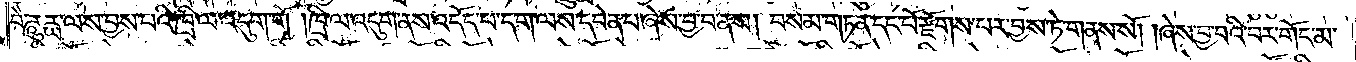བཻ་ཌཱུརྻ་ལས་བྱས་པའི་ཁྲི་ལ་འདུག་གོ །ཁྲི་ལ་འདུག་ནས་འདོད་པ་དག་ལས་དབེན་པ་ཞེས་བྱ་བ་ནས། བསམ་གཏན་དང་པོ་རྫོགས་པར་བྱས་ཏེ་གནས་སོ། །ཞེས་བྱ་བའི་བར་གོང་མ་
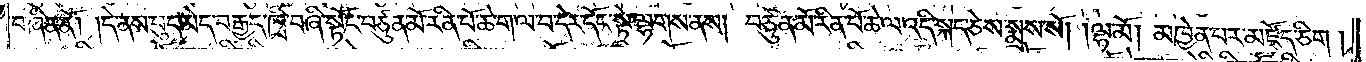བཞིན་ནོ། །དེ་ནས་བུད་མེད་བརྒྱད་ཁྲི་བཞི་སྟོང་བཙུན་མོ་རིན་པོ་ཆེ་ག་ལ་བ་དེར་དོང་སྟེ་ལྷགས་ནས། བཙུན་མོ་རིན་པོ་ཆེ་ལ་འདི་སྐད་ཅེས་སྨྲས་སོ། །ལྷ་མོ། མཁྱེན་པར་མཛོད་ཅིག།
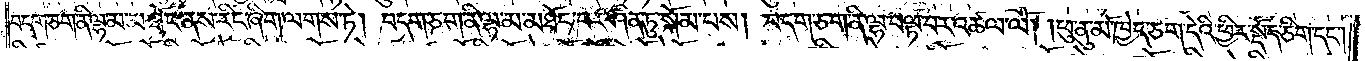བདག་ཅག་ནི་ལྷ་མ་མཐོང་ནས་རིང་ཞིག་ལགས་ཏེ། བདག་ཅག་ནི་ལྷ་མ་མཐོང་བར་ཤིན་ཏུ་སྐོམ་པས། བདག་ཅག་ནི་ལྷ་བལྟ་བར་འཚལ་ལོ། །ཕུ་ནུ་མོ་ཁྱེད་ཅག་དེའི་ཕྱིར་སྡོད་ཅིག་དང༌།
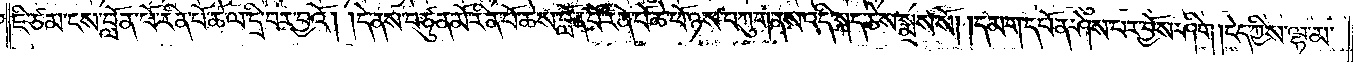ཇི་ཙམ་ངས་བློན་པོ་རིན་པོ་ཆེ་ལ་དྲི་བར་བྱའོ། །དེ་ནས་བཙུན་མོ་རིན་པོ་ཆེས་བློན་པོ་རིན་པོ་ཆེ་ཕོ་ཉས་བཀུག་ནས་འདི་སྐད་ཅེས་སྨྲས་སོ། །དམག་དཔོན་ཤེས་པར་བྱོས་ཤིག །ངེད་ཀྱིས་ལྷ་མ་
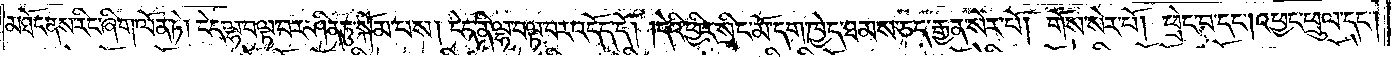མཐོང་ནས་རིང་ཞིག་ལོན་ཏེ། ངེད་ལྷ་བལྟ་བར་ཤིན་ཏུ་སྐོམ་པས། ངེད་ནི་ལྷ་བལྟ་བར་འདོད་དོ། །དེའི་ཕྱིར་སྲིང་མོ་དག་ཁྱེད་ཐམས་ཅད་རྒྱན་སེར་པོ། གོས་སེར་པོ། ཕྲེང་བ་དང༌། འཕྱང་ཕྲུལ་དང༌།
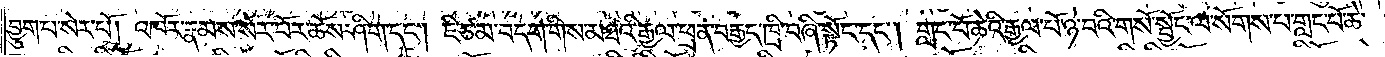བྱུག་པ་སེར་པོ། འཁོར་རྣམས་སེར་པོར་ཆོས་ཤིག་དང༌། ཇི་ཙམ་བདག་གིས་མཐའི་རྒྱལ་ཕྲན་བརྒྱད་ཁྲི་བཞི་སྟོང་དང༌། གླང་པོ་ཆེའི་རྒྱལ་པོ་ཉེ་བའི་གསོ་སྦྱོང་ལ་སོགས་པ་གླང་པོ་ཆེ་
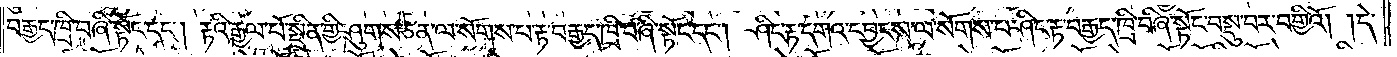བརྒྱད་ཁྲི་བཞི་སྟོང་དང༌། རྟའི་རྒྱལ་པོ་སྤྲིན་གྱི་ཤུགས་ཅན་ལ་སོགས་པ་རྟ་བརྒྱད་ཁྲི་བཞི་སྟོང་དང༌། ཤིང་རྟ་དགའ་དབྱངས་ལ་སོགས་པ་ཤིང་རྟ་བརྒྱད་ཁྲི་བཞི་སྟོང་བསྡུ་བར་བགྱིའོ། །དེ་
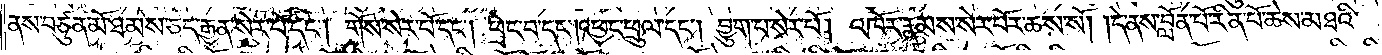ནས་བཙུན་མོ་ཐམས་ཅད་རྒྱན་སེར་པོ་དང༌། གོས་སེར་པོ་དང༌། ཕྲེང་བ་དང༌། འཕྱང་ཕྲུལ་དང༌། བྱུག་པ་སེར་པོ། འཁོར་རྣམས་སེར་པོར་ཆས་སོ། །དེ་ནས་བློན་པོ་རིན་པོ་ཆེས་མཐའི་
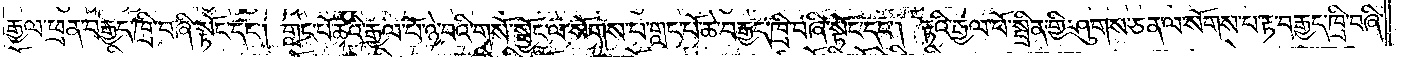རྒྱལ་ཕྲན་བརྒྱད་ཁྲི་བཞི་སྟོང་དང༌། གླང་པོ་ཆེའི་རྒྱལ་པོ་ཉེ་བའི་གསོ་སྦྱོང་ལ་སོགས་པ་གླང་པོ་ཆེ་བརྒྱད་ཁྲི་བཞི་སྟོང་དང༌། རྟའི་རྒྱལ་པོ་སྤྲིན་གྱི་ཤུགས་ཅན་ལ་སོགས་པ་རྟ་བརྒྱད་ཁྲི་བཞི་
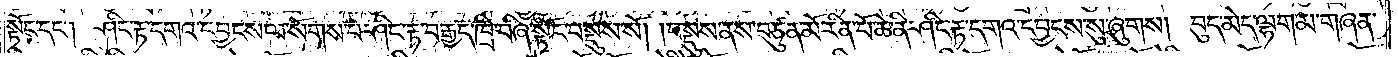སྟོང་དང༌། ཤིང་རྟ་དགའ་དབྱངས་ལ་སོགས་པ་ཤིང་རྟ་བརྒྱད་ཁྲི་བཞི་སྟོང་བསྡུས་སོ། །བསྡུས་ནས་བཙུན་མོ་རིན་པོ་ཆེ་ནི་ཤིང་རྟ་དགའ་དབྱངས་ཤུ་ཞུགས། བུད་མེད་ལྷག་མ་གཞན་
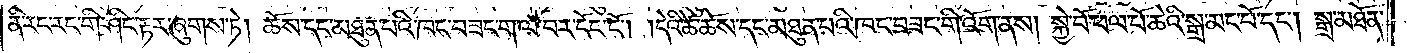ནི་རང་རང་གི་ཤིང་རྟར་ཞུགས་ཏེ། ཆོས་དང་མཐུན་པའི་ཁང་བཟང་ག་ལ་བར་དོང་ངོ༌། །དེའི་ཚེ་ཆོས་དང་མཐུན་པའི་ཁང་བཟང་གི་འོག་ནས། སྐྱེ་བོ་ཕལ་པོ་ཆེའི་སྒྲ་མང་པོ་དང༌། སྒྲ་མཐོན་
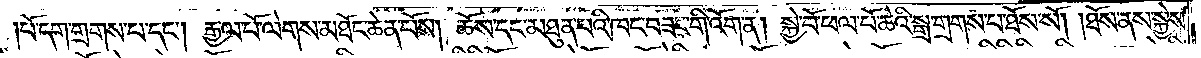པོ་དག་གྲགས་པ་དང༌། རྒྱལ་པོ་ལེགས་མཐོང་ཆེན་པོས། ཆོས་དང་མཐུན་པའི་ཁང་བཟང་གི་འོག་ན། སྐྱེ་བོ་ཕལ་པོ་ཆེའི་སྒྲ་གྲགས་པ་ཐོས་སོ། །ཐོས་ནས་སྐྱེས་
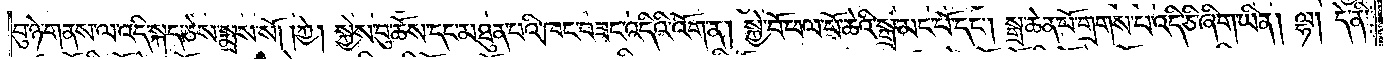བུ་ཉེ་གནས་ལ་འདི་སྐད་ཅེས་སྨྲས་སོ། །ཀྱེ། སྐྱེས་བུ་ཆོས་དང་མཐུན་པའི་ཁང་བཟང་འདིའི་འོག་ན། སྐྱེ་བོ་ཕལ་པོ་ཆེའི་སྒྲ་མང་པོ་དང༌། སྒྲ་ཆེན་པོ་གྲགས་པ་འདི་ཅི་ཞིག་ཡིན། ལྷ། དེ་ནི་
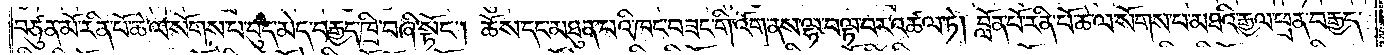བཙུན་མོ་རིན་པོ་ཆེ་ལ་སོགས་པ་བུད་མེད་བརྒྱད་ཁྲི་བཞི་སྟོང༌། ཆོས་དང་མཐུན་པའི་ཁང་བཟང་གི་འོག་ནས་ལྷ་བལྟ་བར་འཚལ་ཏེ། བློན་པོ་རིན་པོ་ཆེ་ལ་སོགས་པ་མཐའི་རྒྱལ་ཕྲན་བརྒྱད་
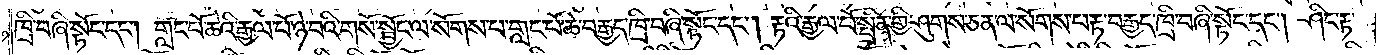ཁྲི་བཞི་སྟོང་དང༌། གླང་པོ་ཆེའི་རྒྱལ་པོ་ཉེ་བའི་གསོ་སྦྱོང་ལ་སོགས་པ་གླང་པོ་ཆེ་བརྒྱད་ཁྲི་བཞི་སྟོང་དང༌། རྟའི་རྒྱལ་པོ་སྤྲིན་གྱི་ཤུགས་ཅན་ལ་སོགས་པ་རྟ་བརྒྱད་ཁྲི་བཞི་སྟོང་དང༌། ཤིང་རྟ་
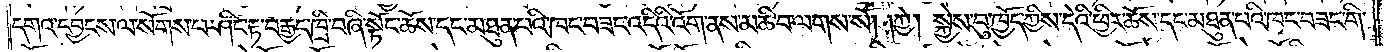དགའ་དབྱངས་ལ་སོགས་པ་ཤིང་རྟ་བརྒྱད་ཁྲི་བཞི་སྟོང་ཆོས་དང་མཐུན་པའི་ཁང་བཟང་འདིའི་འོག་ནས་མཆི་བ་ལགས་སོ། །ཀྱེ། སྐྱེས་བུ་ཁྱོད་ཀྱིས་དེའི་ཕྱིར་ཆོས་དང་མཐུན་པའི་ཁང་བཟང་གི་
